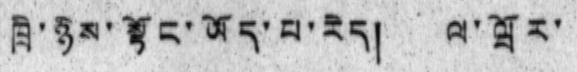ཁྲི་ཉིས་སྟོང་ཡོད་པ་རེད། ལ་ཝོར་
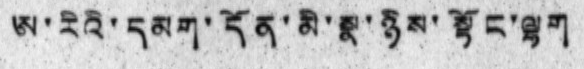ཨ་རིའི་དམག་དོན་མི་སྣ་ཉིས་སྟོང་ལྷག
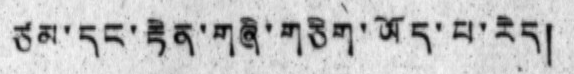ཙམ་དང་རྟེན་གཞི་གཅིག་ཡོད་པ་རེད།
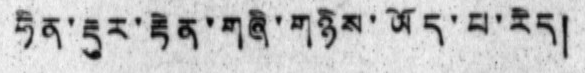ཧིན་རྡུར་རྟེན་གཞི་གཉིས་ཡོད་པ་རེད།
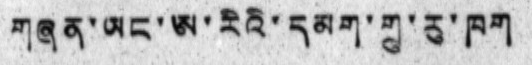གཞན་ཡང་ཨ་རིའི་དམག་གྲུ་རུ་ཁག
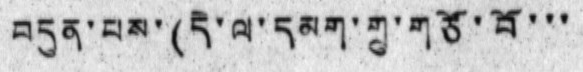བདུན་པས་ (དེ་ལ་དམག་གྲུ་གཙོ་བོ་་་
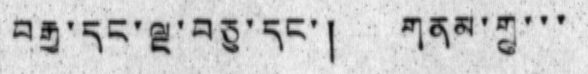བརྒྱ་དང་ལྔ་བཅུ་དང་། གནམ་གྲུ་་་
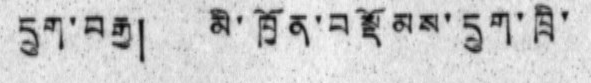དྲུག་བརྒྱ། མི་ཁྱོན་བསྡོམས་དྲུག་ཁྲི་
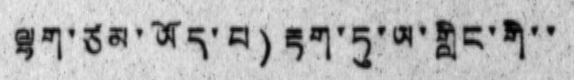ལྷག་ཙམ་ཡོད་པ) རྟག་ཏུ་ཡ་གླིང་གི་་
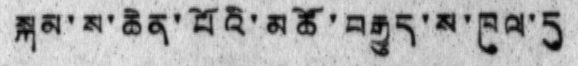སྐམ་ས་ཆེན་པོའི་མཚོ་བརྒྱུད་མ་ཁུལ་དུ
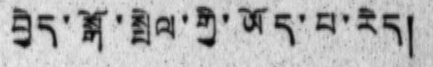བྱེད་སྒོ་སྤེལ་གྱི་ཡོད་པ་རེད།
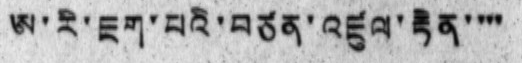ཨ་རི་ཇག་པའི་བཙན་འཛུལ་རྟེན་་་་
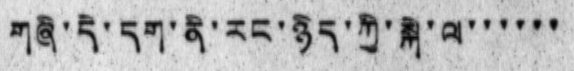གཞི་དེ་དག་ནི་རང་ཉིད་ཀྱི་སྐེ་ལ་་་་་་
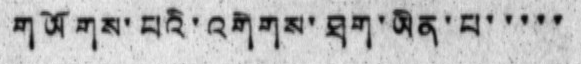གཡོགས་པའི་འགེགས་ཐག་ཡིན་པ་་་་་
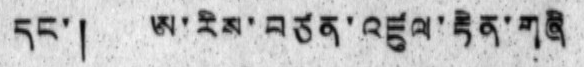དང་། ཨ་རིས་བཙན་འཛུལ་རྟེན་གཞི
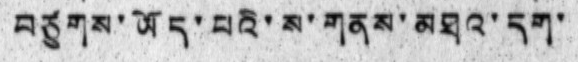བཙུགས་ཡོད་པའི་ས་གནས་མཐའ་དག་
